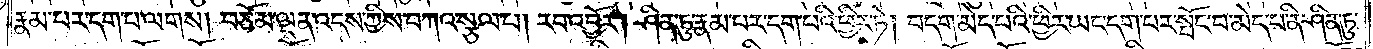རྣམ་པར་དག་པ་ལགས། བཅོམ་ལྡན་འདས་ཀྱིས་བཀའ་སྩལ་པ། རབ་འབྱོར། ཤིན་ཏུ་རྣམ་པར་དག་པའི་ཕྱིར་ཏེ། བདག་མེད་པའི་ཕྱིར་ཡང་དག་པར་སྤོང་བ་མེད་པ་ནི་ཤིན་ཏུ་
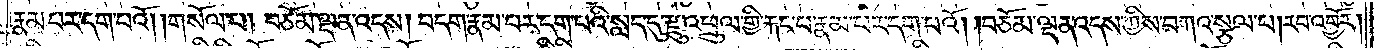རྣམ་པར་དག་པའོ། །གསོལ་པ། བཅོམ་ལྡན་འདས། བདག་རྣམ་པར་དག་པའི་སླད་དུ་རྫུ་འཕྲུལ་གྱི་རྐང་པ་རྣམ་པར་དག་པའོ། །བཅོམ་ལྡན་འདས་ཀྱིས་བཀའ་སྩལ་པ། རབ་འབྱོར།
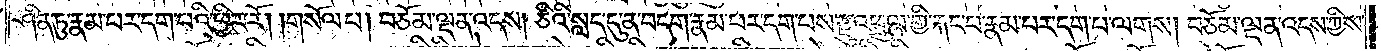ཤིན་ཏུ་རྣམ་པར་དག་པའི་ཕྱིར་རོ། །གསོལ་པ། བཅོམ་ལྡན་འདས། ཅིའི་སླད་དུ་ན་བདག་རྣམ་པར་དག་པས་རྫུ་འཕྲུལ་གྱི་རྐང་པ་རྣམ་པར་དག་པ་ལགས། བཅོམ་ལྡན་འདས་ཀྱིས་
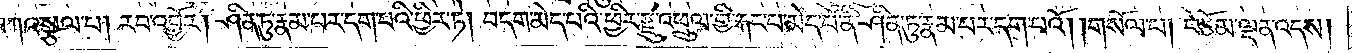བཀའ་སྩལ་པ། རབ་འབྱོར། ཤིན་ཏུ་རྣམ་པར་དག་པའི་ཕྱིར་ཏེ། བདག་མེད་པའི་ཕྱིར་རྫུ་འཕྲུལ་གྱི་རྐང་པ་མེད་པ་ནི་ཤིན་ཏུ་རྣམ་པར་དག་པའོ། །གསོལ་པ། བཅོམ་ལྡན་འདས།
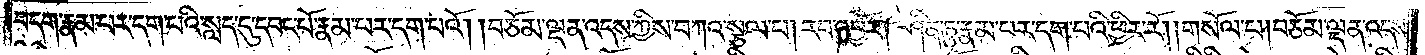བདག་རྣམ་པར་དག་པའི་སླད་དུ་དབང་པོ་རྣམ་པར་དག་པའོ། །བཅོམ་ལྡན་འདས་ཀྱིས་བཀའ་སྩལ་པ། རབ་འབྱོར། ཤིན་ཏུ་རྣམ་པར་དག་པའི་ཕྱིར་རོ། །གསོལ་པ། བཅོམ་ལྡན་འདས།
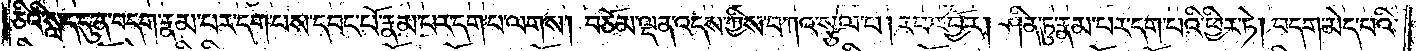ཅིའི་སླད་དུ་ན་བདག་རྣམ་པར་དག་པས་དབང་པོ་རྣམ་པར་དག་པ་ལགས། བཅོམ་ལྡན་འདས་ཀྱིས་བཀའ་སྩལ་པ། རབ་འབྱོར། ཤིན་ཏུ་རྣམ་པར་དག་པའི་ཕྱིར་ཏེ། བདག་མེད་པའི་
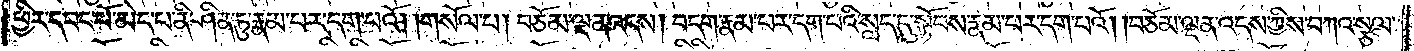ཕྱིར་དབང་པོ་མེད་པ་ནི་ཤིན་ཏུ་རྣམ་པར་དག་པའོ། །གསོལ་པ། བཅོམ་ལྡན་འདས། བདག་རྣམ་པར་དག་པའི་སླད་དུ་སྟོབས་རྣམ་པར་དག་པའོ། །བཅོམ་ལྡན་འདས་ཀྱིས་བཀའ་སྩལ་
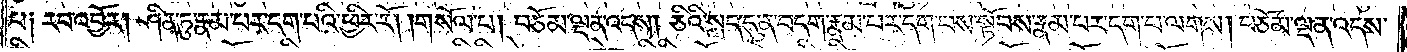པ༑ རབ་འབྱོར། ཤིན་ཏུ་རྣམ་པར་དག་པའི་ཕྱིར་རོ། །གསོལ་པ། བཅོམ་ལྡན་འདས། ཅིའི་སླད་དུ་ན་བདག་རྣམ་པར་དག་པས་སྟོབས་རྣམ་པར་དག་པ་ལགས། བཅོམ་ལྡན་འདས་
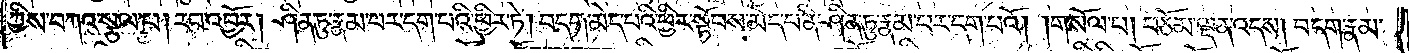ཀྱིས་བཀའ་སྩལ་པ། རབ་འབྱོར། ཤིན་ཏུ་རྣམ་པར་དག་པའི་ཕྱིར་ཏེ། བདག་མེད་པའི་ཕྱིར་སྟོབས་མེད་པ་ནི་ཤིན་ཏུ་རྣམ་པར་དག་པའོ། །གསོལ་པ། བཅོམ་ལྡན་འདས། བདག་རྣམ་
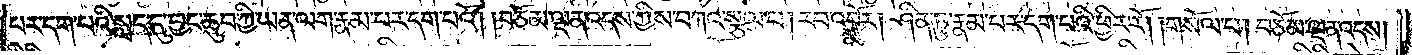པར་དག་པའི་སླད་དུ་བྱང་ཆུབ་ཀྱི་ཡན་ལག་རྣམ་པར་དག་པའོ། །བཅོམ་ལྡན་འདས་ཀྱིས་བཀའ་སྩལ་པ། རབ་འབྱོར། ཤིན་ཏུ་རྣམ་པར་དག་པའི་ཕྱིར་རོ། །གསོལ་པ། བཅོམ་ལྡན་འདས།
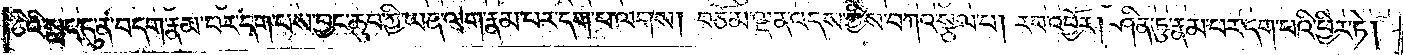ཅིའི་སླད་དུ་ན་བདག་རྣམ་པར་དག་པས་བྱང་ཆུབ་ཀྱི་ཡན་ལག་རྣམ་པར་དག་པ་ལགས། བཅོམ་ལྡན་འདས་ཀྱིས་བཀའ་སྩལ་པ། རབ་འབྱོར། ཤིན་ཏུ་རྣམ་པར་དག་པའི་ཕྱིར་ཏེ།
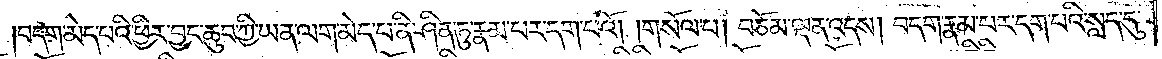བདག་མེད་པའི་ཕྱིར་བྱང་ཆུབ་ཀྱི་ཡན་ལག་མེད་པ་ན་ཤིན་ཏུ་རྣམ་པར་དག་པའོ། །གསོལ་པ། བཅོམ་ལྡན་འདས། བདག་རྣམ་པར་དག་པའི་སླད་དུ་
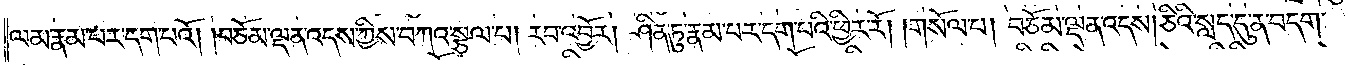ལམ་རྣམ་པར་དག་པའོ། །བཅོམ་ལྡན་འདས་ཀྱིས་བཀའ་སྩལ་པ། རབ་འབྱོར། ཤིན་ཏུ་རྣམ་པར་དག་པའི་ཕྱིར་རོ། །གསོལ་པ། བཅོམ་ལྡན་འདས། ཅིའི་སླད་དུ་ན་བདག་
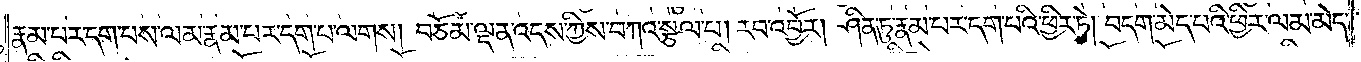རྣམ་པར་དག་པས་ལམ་རྣམ་པར་དག་པ་ལགས། བཅོམ་ལྡན་འདས་ཀྱིས་བཀའ་སྩལ་པ། རབ་འབྱོར། ཤིན་ཏུ་རྣམ་པར་དག་པའི་ཕྱིར་ཏེ། བདག་མེད་པའི་ཕྱིར་ལམ་མེད་
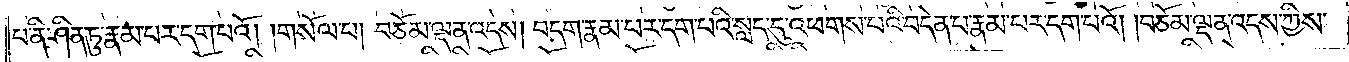པ་ནི་ཤིན་ཏུ་རྣམ་པར་དག་པའོ། །གསོལ་པ། བཅོམ་ལྡན་འདས། བདག་རྣམ་པར་དག་པའི་སླད་དུ་འཕགས་པའི་བདེན་པ་རྣམ་པར་དག་པའོ། །བཅོམ་ལྡན་འདས་ཀྱིས་
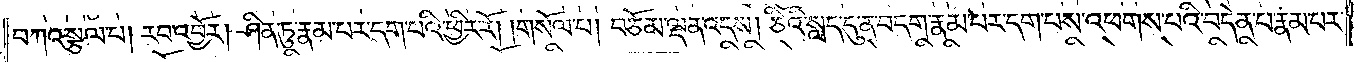བཀའ་སྩལ་པ། རབ་འབྱོར། ཤིན་ཏུ་རྣམ་པར་དག་པའི་ཕྱིར་རོ། །གསོལ་པ། བཅོམ་ལྡན་འདས། ཅིའི་སླད་དུ་ན་བདག་རྣམ་པར་དག་པས་འཕགས་པའི་བདེན་པ་རྣམ་པར་
